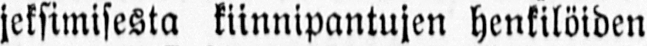jeksimisesta kiinnipantujen henkilöiden
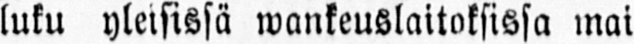luku yleisissä wankeuslaitoksissa mai-
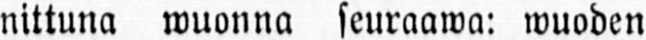nittuna wuonna seuraawa: wuoden
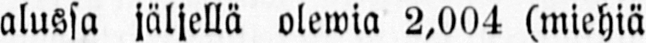alussa jäljellä olewia 2,004 (miehiä
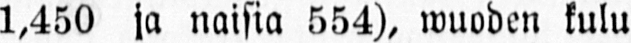1,450 ja naisia 554), wuoden kulu-
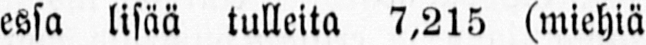essa lisää tulleita 7,215 (miehiä
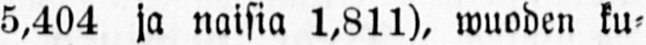5,404 ja naisia 1,811), wuoden ku-
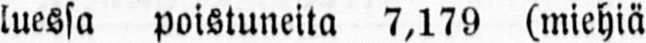luessa poistuneita 7,179 (miehiä
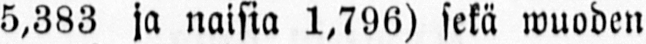5,383 ja naisia 1,796) sekä wuoden
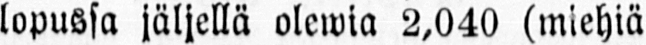lopussa jäljellä olewia 2,040 (miehiä
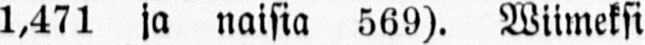1,471 ja naisia 569). Wiimeksi
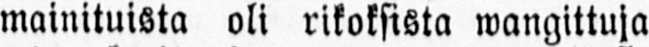mainituista oli rikoksista wangittuja
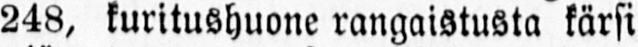248, kuritushuone rangaistusta kärsi
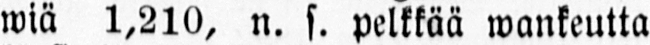wiä 1,210, n. s. pelkkää wankeutta
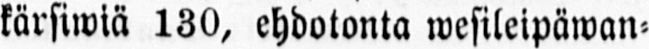kärsiwiä 130, ehdotonta wesileipäwan-
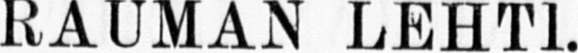RAUMAN LEHTI.
